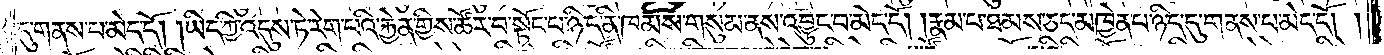དུ་གནས་པ་མེད་དོ། །ཡིད་ཀྱི་འདུས་ཏེ་རེག་པའི་རྐྱེན་གྱིས་ཚོར་བ་སྟོང་པ་ཉིད་ནི་ཁམས་གསུམ་ནས་འབྱུང་བ་མེད་དོ། །རྣམ་པ་ཐམས་ཅད་མཁྱེན་པ་ཉིད་དུ་གནས་པ་མེད་དོ། །
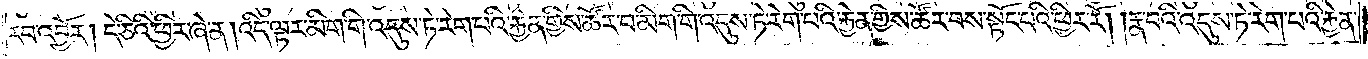རབ་འབྱོར། དེ་ཅིའི་ཕྱིར་ཞེ་ན། འདི་ལྟར་མིག་གི་འདུས་ཏེ་རེག་པའི་རྐྱེན་གྱིས་ཚོར་བ་མིག་གི་འདུས་ཏེ་རེག་པའི་རྐྱེན་གྱིས་ཚོར་བས་སྟོང་པའི་ཕྱིར་རོ། །རྣ་བའི་འདུས་ཏེ་རེག་པའི་རྐྱེན་
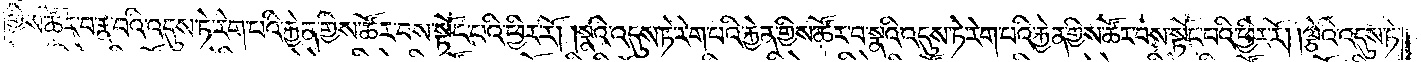གྱིས་ཚོར་བ་རྣ་བའི་འདུས་ཏེ་རེག་པའི་རྐྱེན་གྱིས་ཚོར་བས་སྟོང་པའི་ཕྱིར་རོ། །སྣའི་འདུས་ཏེ་རེག་པའི་རྐྱེན་གྱིས་ཚོར་བ་སྣའི་འདུས་ཏེ་རེག་པའི་རྐྱེན་གྱིས་ཚོར་བས་སྟོང་པའི་ཕྱིར་རོ། །ལྕེའི་འདུས་ཏེ་
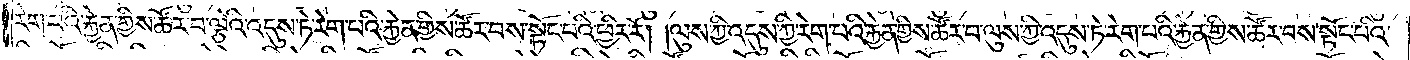རེག་པའི་རྐྱེན་གྱིས་ཚོར་བ་ལྕེའི་འདུས་ཏེ་རེག་པའི་རྐྱེན་གྱིས་ཚོར་བས་སྟོང་པའི་ཕྱིར་རོ། །ལུས་ཀྱི་འདུས་ཏེ་རེག་པའི་རྐྱེན་གྱིས་ཚོར་བ་ལུས་ཀྱི་འདུས་ཏེ་རེག་པའི་རྐྱེན་གྱིས་ཚོར་བས་སྟོང་པའི་
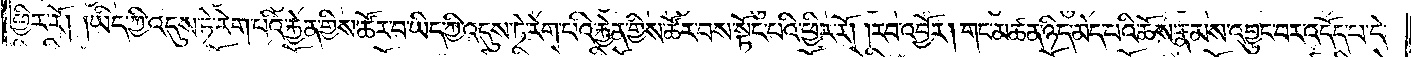ཕྱིར་རོ། །ཡིད་ཀྱི་འདུས་ཏེ་རེག་པའི་རྐྱེན་གྱིས་ཚོར་བ་ཡིད་ཀྱི་འདུས་ཏེ་རེག་པའི་རྐྱེན་གྱིས་ཚོར་བས་སྟོང་པའི་ཕྱིར་རོ། །རབ་འབྱོར། གང་མཚན་ཉིད་མེད་པས་ཆོས་རྣམས་འབྱུང་བར་འདོད་པ་དེ་
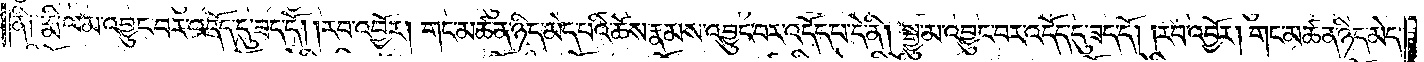ནི། རྨི་ལམ་འབྱུང་བར་འདོད་དུ་ཟད་དོ། །རབ་འབྱོར། གང་མཚན་ཉིད་མེད་པའི་ཆོས་རྣམས་འབྱུང་བར་འདོད་པ་དེ་ནི། སྒྱུ་མ་འབྱུང་བར་འདོད་དུ་ཟད་དོ། །རབ་འབྱོར། གང་མཚན་ཉིད་མེད་
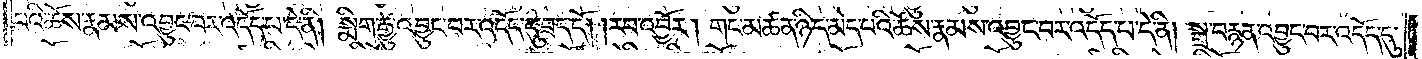པའི་ཆོས་རྣམས་འབྱུང་བར་འདོད་པ་དེ་ནི། སྨིག་རྒྱུ་འབྱུང་བར་འདོད་དུ་ཟད་དོ། །རབ་འབྱོར། གང་མཚན་ཉིད་མེད་པའི་ཆོས་རྣམས་འབྱུང་བར་འདོད་པ་དེ་ནི། སྒྲ་བརྙན་འབྱུང་བར་འདོད་དུ་
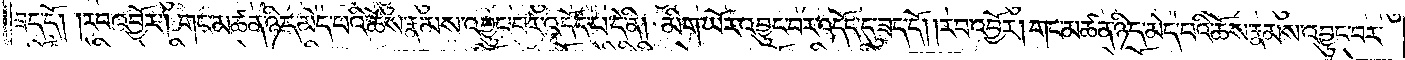ཟད་དོ། །རབ་འབྱོར། གང་མཚན་ཉིད་མེད་པའི་ཆོས་རྣམས་འབྱུང་བར་འདོད་པ་དེ་ནི། མིག་ཡོར་འབྱུང་བར་འདོད་དུ་ཟད་དོ། །རབ་འབྱོར། གང་མཚན་ཉིད་མེད་པའི་ཆོས་རྣམས་འབྱུང་བར་
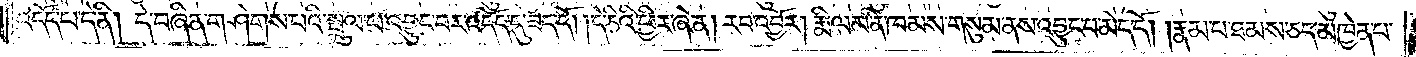འདོད་པ་དེ་ནི། དེ་བཞིན་གཤེགས་པའི་སྤྲུལ་པ་འབྱུང་བར་འདོད་དུ་ཟད་དོ། །དེ་ཅིའི་ཕྱིར་ཞེ་ན། རབ་འབྱོར། རྨི་ལམ་ནི་ཁམས་གསུམ་ནས་འབྱུང་བ་མེད་དོ། །རྣམ་པ་ཐམས་ཅད་མཁྱེན་པ་
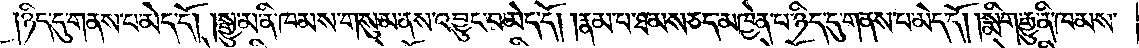ཉིད་དུ་གནས་པ་མེད་དོ། སྒྱུ་མ་ནི་ཁམས་གསུམ་ནས་འབྱུང་བ་མེད་དོ། །རྣམ་པ་ཐམས་ཅད་མཁྱེན་པ་ཉིད་དུ་གནས་པ་མེད་དོ། །སྨིག་རྒྱུ་ནི་ཁམས་
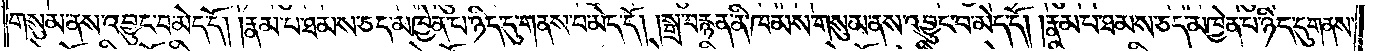གསུམ་ནས་འབྱུང་བ་མེད་དོ། །རྣམ་པ་ཐམས་ཅད་མཁྱེན་པ་ཉིད་དུ་གནས་པ་མེད་དོ། །སྒྲ་བརྙན་ནི་ཁམས་གསུམ་ནས་འབྱུང་བ་མེད་དོ། །རྣམ་པ་ཐམས་ཅད་མཁྱེན་པ་ཉིད་དུ་གནས་
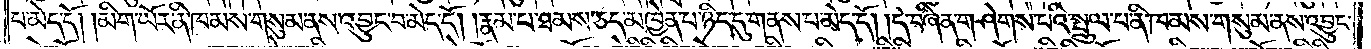པ་མེད་དོ། །མིག་ཡོར་ནི་ཁམས་གསུམ་ནས་འབྱུང་བ་མེད་དོ། །རྣམ་པ་ཐམས་ཅད་མཁྱེན་པ་ཉིད་དུ་གནས་པ་མེད་དོ། །དེ་བཞིན་གཤེགས་པའི་སྤྲུལ་པ་ནི་ཁམས་གསུམ་ནས་འབྱུང་
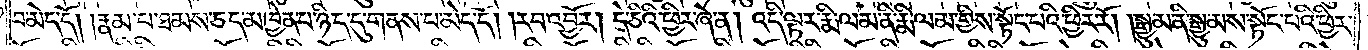བ་མེད་དོ། །རྣམ་པ་ཐམས་ཅད་མཁྱེན་པ་ཉིད་དུ་གནས་པ་མེད་དོ། །རབ་འབྱོར། དེ་ཅིའི་ཕྱིར་ཞེ་ན། འདི་ལྟར་རྨི་ལམ་ནི་རྨི་ལམ་གྱིས་སྟོང་པའི་ཕྱིར་རོ། །སྒྱུ་མ་ནི་སྒྱུ་མས་སྟོང་པའི་ཕྱིར་
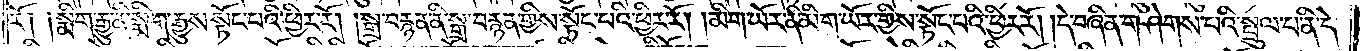རོ༑ ༑སྨིག་རྒྱུ་ནི་སྨིག་རྒྱུས་སྟོང་པའི་ཕྱིར་རོ། །སྒྲ་བརྙན་ནི་སྒྲ་བརྙན་གྱིས་སྟོང་པའི་ཕྱིར་རོ། །མིག་ཡོར་ནི་མིག་ཡོར་གྱིས་སྟོང་པའི་ཕྱིར་རོ། །དེ་བཞིན་གཤེགས་པའི་སྤྲུལ་པ་ནི་དེ་
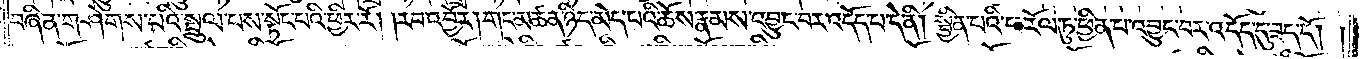བཞིན་གཤེགས་པའི་སྤྲུལ་པས་སྟོང་པའི་ཕྱིར་རོ། །རབ་འབྱོར། གང་མཚན་ཉིད་མེད་པའི་ཆོས་རྣམས་འབྱུང་བར་འདོད་པ་དེ་ནི། སྦྱིན་པའི་ཕ་རོལ་ཏུ་ཕྱིན་པ་འབྱུང་བར་འདོད་དུ་ཟད་དོ། །
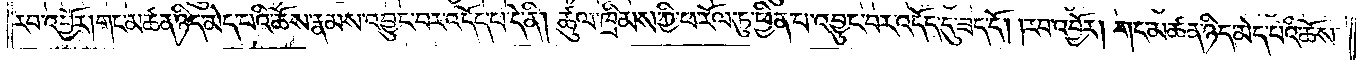རབ་འབྱོར། གང་མཚན་ཉིད་མེད་པའི་ཆོས་རྣམས་འབྱུང་བར་འདོད་པ་དེ་ནི། ཚུལ་ཁྲིམས་ཀྱི་ཕ་རོལ་ཏུ་ཕྱིན་པ་འབྱུང་བར་འདོད་དུ་ཟད་དོ། །རབ་འབྱོར། གང་མཚན་ཉིད་མེད་པའི་ཆོས་
